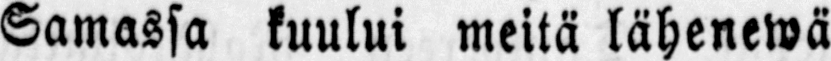Samassa kuului meitä lähenewä
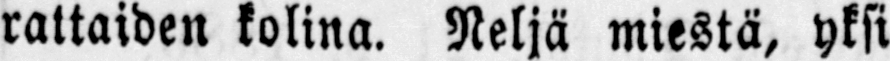rattaiden kolina. Neljä miestä, yksi
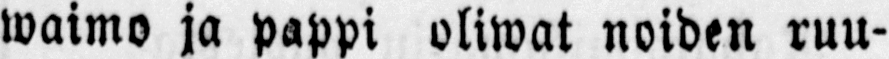waimo ja pappi oliwat noiden ruu-
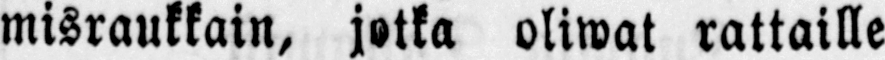misraukkain, jotka oliwat rattaille
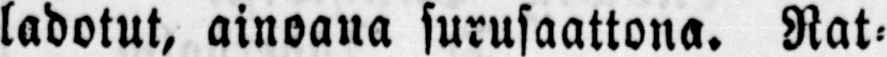ladotut, ainoana surusaattona. Rat-
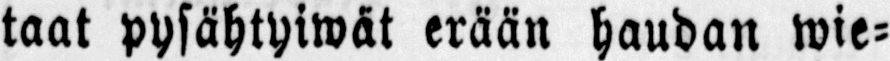taat pysähtyiwät erään haudan wie-
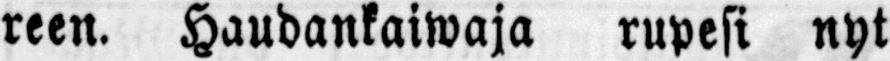reen. Haudankaiwaja rupesi nyt
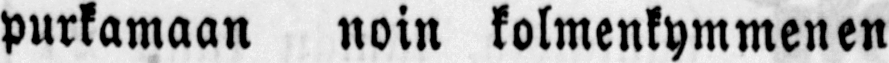purkamaan noin kolmenkymmenen
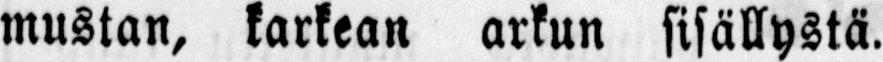mustan, karkean arkun sisällystä.
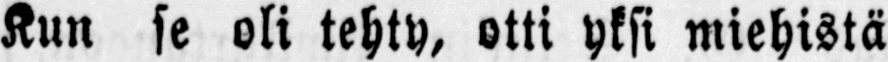Kun se oli tehty, otti yksi miehistä
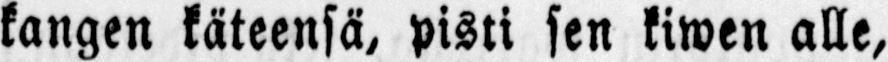kangen käteensä, pisti sen kiwen alle,
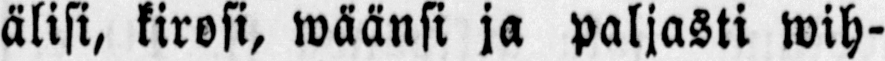älisi, kirosi, wäänsi ja paljasti wih-
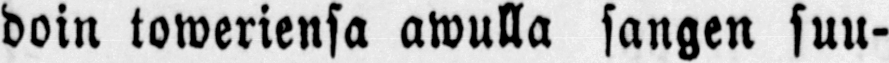doin toweriensa awulla sangen suu-
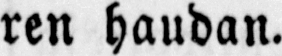ren haudan.
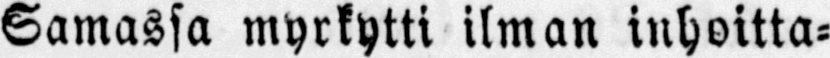Samassa myrkytti ilman inhoitta-
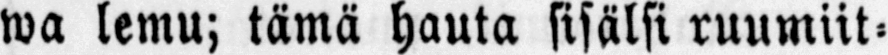wa lemu; tämä hauta sisälsi ruumiit-
